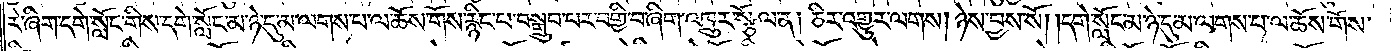རེ་ཞིག་དགེ་སློང་གིས་དགེ་སློང་མ་ཉེ་དུ་མ་ལགས་པ་ལ་ཆོས་གོས་རྙིང་པ་བསྒྲུབ་པར་བགྱི་བ་ཞིག་འཁྲུར་སྩོལ་ན། ཅིར་འགྱུར་ལགས། ཉེས་བྱས་སོ། །དགེ་སློང་མ་ཉེ་དུ་མ་ལགས་པ་ལ་ཆོས་གོས་
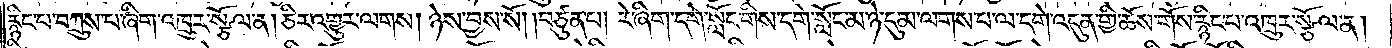རྙིང་པ་བཀྲུས་པ་ཞིག་འཁྲུར་སྩོལ་ན། ཅིར་འགྱུར་ལགས། ཉེས་བྱས་སོ། །བཙུན་པ། རེ་ཞིག་དགེ་སློང་གིས་དགེ་སློང་མ་ཉེ་དུ་མ་ལགས་པ་ལ་དགེ་འདུན་གྱི་ཆོས་གོས་རྙིང་པ་འཁྲུར་སྩོལ་ན།
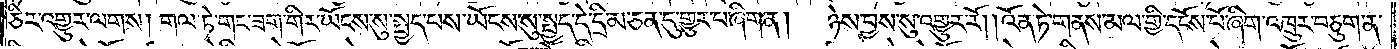ཅིར་འགྱུར་ལགས། གལ་ཏེ་གང་ཟག་གིར་ཡོངས་སུ་སྤྱད་པས་ཡོངས་སུ་སྤྱད་དེ་དྲི་མ་ཅན་དུ་གྱུར་པ་ཞིག་ན། ཉེས་བྱས་སུ་འགྱུར་རོ། །འོན་ཏེ་གནས་མལ་གྱི་དངོས་པོ་ཞིག་འཁྲུར་བཅུག་ན་
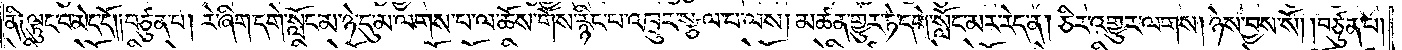ནི༑ ལྟུང་བ་མེད་དོ། །བཙུན་པ། རེ་ཞིག་དགེ་སློང་མ་ཉེ་དུ་མ་ལགས་པ་ལ་ཆོས་གོས་རྙིང་པ་འཁྲུར་སྩལ་པ་ལས། མཚན་གྱུར་ཏེ་དགེ་སློང་མར་རེད་ན། ཅིར་འགྱུར་ལགས། ཉེས་བྱས་སོ། །བཙུན་པ།
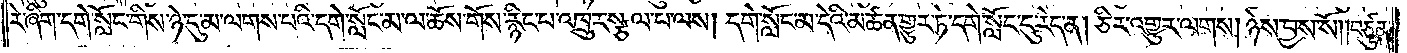རེ་ཞིག་དགེ་སློང་གིས་ཉེ་དུ་མ་ལགས་པའི་དགེ་སློང་མ་ལ་ཆོས་གོས་རྙིང་པ་འཁྲུར་སྩལ་པ་ལས། དགེ་སློང་མ་དེའི་མཚན་གྱུར་ཏེ་དགེ་སློང་དུ་རེད་ན། ཅིར་འགྱུར་ལགས། ཉེས་བྱས་སོ། །བཙུན་
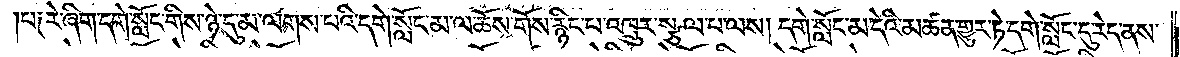།པ༑ རེ་ཞིག་དགེ་སློང་གིས་ཉེ་དུ་མ་ལགས་པའི་དགེ་སློང་མ་ལ་ཆོས་གོས་རྙིང་པ་འཁྲུར་སྩལ་པ་ལས། དགེ་སློང་མ་དེའི་མཚན་གྱུར་ཏེ་དགེ་སློང་དུ་རེད་ནས་
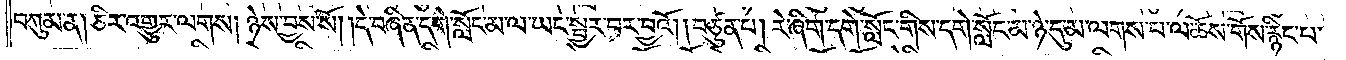བཀུམ་ན། ཅིར་འགྱུར་ལགས། ཉེས་བྱས་སོ། །དེ་བཞིན་དགེ་སློང་མ་ལ་ཡང་སྦྱར་བར་བྱའོ། །བཙུན་པ། རེ་ཞིག་དགེ་སློང་གིས་དགེ་སློང་མ་ཉེ་དུ་མ་ལགས་པ་ལ་ཆོས་གོས་རྙིང་པ་
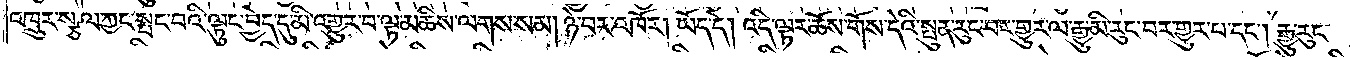འཁྲུར་སྩལ་ཀྱང་སྤང་བའི་ལྟུང་བྱེད་དུ་མི་འགྱུར་བ་ལྟ་མཆིས་ལགས་སམ། ཉེ་བར་འཁོར། ཡོད་དེ། འདི་ལྟར་ཆོས་གོས་དེའི་སྤུན་རུང་བར་གྱུར་ལ་རྒྱུ་མི་རུང་བར་གྱུར་བ་དང༌། རྒྱུ་རུང་
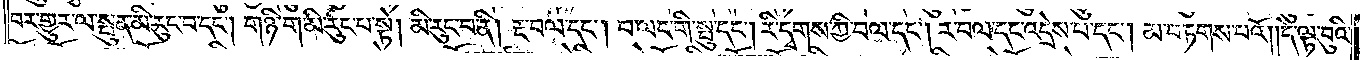བར་གྱུར་ལ་སྤུན་མི་རུང་བ་དང༌། གཉི་ག་མི་རུང་པ་སྟེ། མི་རུང་བ་ནི། རྔ་བལ་དང༌། བ་ལང་གི་སྤུ་དང༌། རི་དྭགས་ཀྱི་བལ་དང༌། ར་བལ་དང་འདྲེས་པ་དང༌། མ་བཏགས་པའོ། །དེ་ལྟ་བུའི་
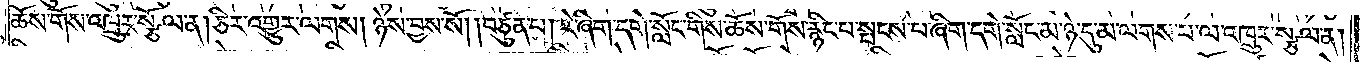ཆོས་གོས་འཁྲུར་སྩོལ་ན། ཅིར་འགྱུར་ལགས། ཉེས་བྱས་སོ། །བཙུན་པ། རེ་ཞིག་དགེ་སློང་གིས་ཆོས་གོས་རྙིང་པ་སྤངས་པ་ཞིག་དགེ་སློང་མ་ཉེ་དུ་མ་ལགས་པ་ལ་འཁྲུར་སྩལ་ན།
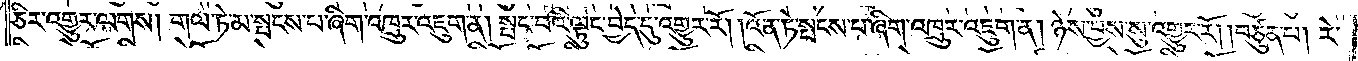ཅིར་འགྱུར་ལགས། གལ་ཏེ་མ་སྤངས་པ་ཞིག་འཁྲུར་འཇུག་ན། སྤང་པའི་ལྟུང་བྱེད་དུ་འགྱུར་རོ། །འོན་ཏེ་སྤངས་པ་ཞིག་འཁྲུར་འཇུག་ན། ཉེས་བྱས་སུ་འགྱུར་རོ། །བཙུན་པ། རེ་
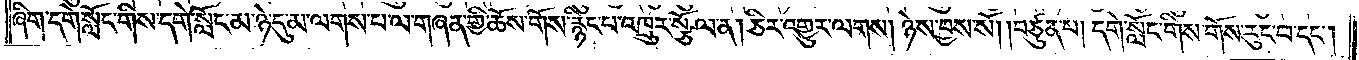ཞིག་དགེ་སློང་གིས་དགེ་སློང་མ་ཉེ་དུ་མ་ལགས་པ་ལ་གཞན་གྱི་ཆོས་གོས་རྙིང་པ་འཁྲུར་སྩོལ་ན། ཅིར་འགྱུར་ལགས། ཉེས་བྱས་སོ། །བཙུན་པ། དགེ་སློང་གིས་གོས་རུང་བ་དང༌།
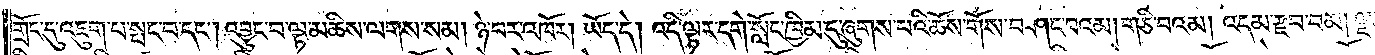གྲོང་དུ་འཇུག་པ་སྤང་བ་དང༌། འབྱུང་བ་ལྟ་མཆིས་ལགས་སམ། ཉེ་བར་འཁོར། ཡོད་དེ། འདི་ལྟར་དགེ་སློང་ཁྱིམ་དུ་ཞུགས་པའི་ཆོས་གོས་བཤང་བའམ། གཅི་བའམ། འདམ་རྫབ་བམ། ལྗན་
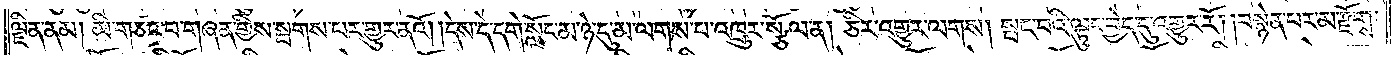ལྗིན་ནམ། མི་གཙང་བ་གཞན་གྱིས་སྦགས་པར་གྱུར་ནའོ། །དེས་དེ་དགེ་སློང་མ་ཉེ་དུ་མ་ལགས་པ་འཁྲུར་སྩོལ་ན། ཅིར་འགྱུར་ལགས། སྤང་པའི་ལྟུང་བྱེད་དུ་འགྱུར་རོ། །བསྙེན་པར་མ་རྫོགས་
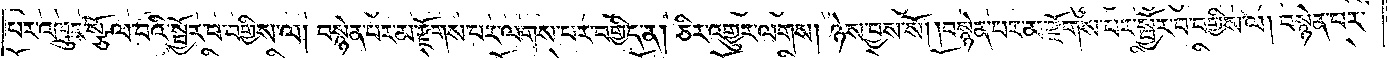པར་འཁྲུར་སྩོལ་བའི་སྦྱོར་བ་བགྱིས་ལ། བསྙེན་པར་མ་རྫོགས་པར་ལགས་པར་བགྱིད་ན། ཅིར་འགྱུར་ལགས། ཉེས་བྱས་སོ། །བསྙེན་པར་མ་རྫོགས་པར་སྦྱོར་བ་བགྱིས་ལ། བསྙེན་པར་
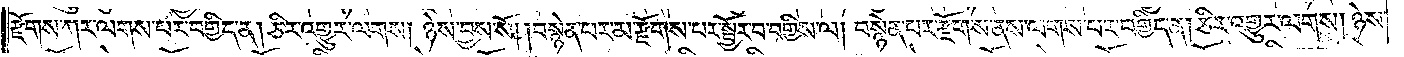རྫོགས་ཀར་ལགས་པར་བགྱིད་ན། ཅིར་འགྱུར་ལགས། ཉེས་བྱས་སོ། །བསྙེན་པར་མ་རྫོགས་པར་སྦྱོར་བ་བགྱིས་ལ། བསྙེན་པར་རྫོགས་ནས་ལགས་པར་བགྱིད་ན། ཅིར་འགྱུར་ལགས། ཉེས་
